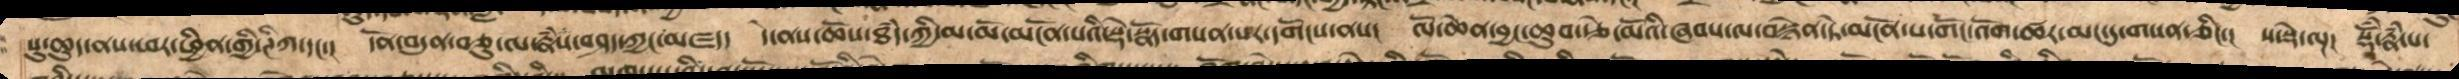སུ་ཆུད་ནས་ཕར་ཕྱིན་གྱི་ཊིཀ་དང་། དོན་བདུན་བཅུ་ལ་རྣཾས་བཤད་ཀྱང་མཛད། དེ་ནས་ཆོས་ཐཾད་ཀྱི་མ་མོ་མངོན་པའི་སྡེ་སྣོད་གསན་པར་དགོངས་ནས། ལོ་ཆེན་བྱང་ཆུབ་རྩེ་མོའི་ཞབས་ལ་བསྙེན་ཏེ་མངོན་པ་གོང་འོག་ཚར་མང་དུ་གསན་ཅིང་། ས་སྡེ་ལྔ། སྡོཾ་རྣཾ་པ་
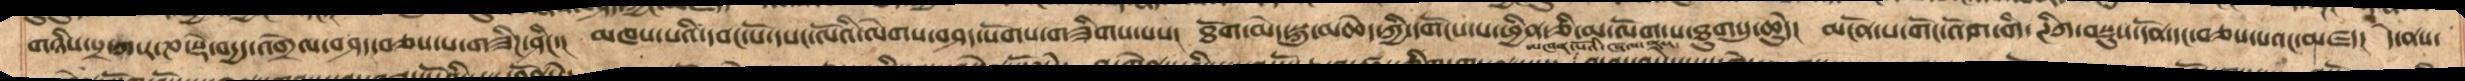གཉིས་པྲ་ཀ་ར་ཎ་སྡེ་བདྱད་འགྲེལ་བཤད་བཅས་པ་གཟིཌ་ཤིང་། མཁས་པའི་དབང་པོ་དཔང་ལོའི་ལེགས་བཤད་སོགས་གཟིགས་པས། ཐོག་མེད་སྐུ་མཆེད་ཀྱི་དགོངས་པཕྱིན་ཅི་མ་ལོག་པ་ཐུགསུ་ཆེུད། མངོན་པ་གོང་འོག་གི་ཊིཀ་བསྡུས་དོན་དང་བཅས་པའང་མཛད། དེ་ནས་
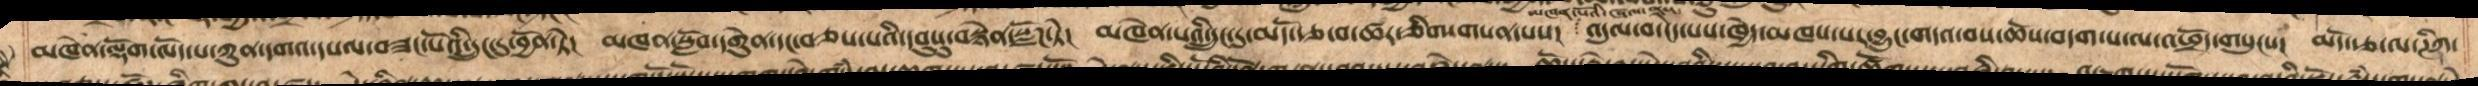མཁེན་ལྡོག་ལོད་པ་ཀུན་དགའ་དཔལ་བཟང་པོའི་དྲུང་དུ་བྱོན་ཏེ། མཁན་སློབ་དགེུན་དང་བཅས་པའི་དབུསུ་བསྙེན་སྫོཌ་ཏེ། མཁེན་པའི་དྲུང་དུ་མདོ་རྩ་བ་ཚར་ཅིག་གསན་པས། འདུལ་བ་ངེད་པས་ཁྱེད་མཁས་པར་བྱུང་གདའ་བས་ཆོས་བདག་པ་ལ་འཕྲོད་གསུངས། མདོ་རྩ་ལ་ཊིཀ་
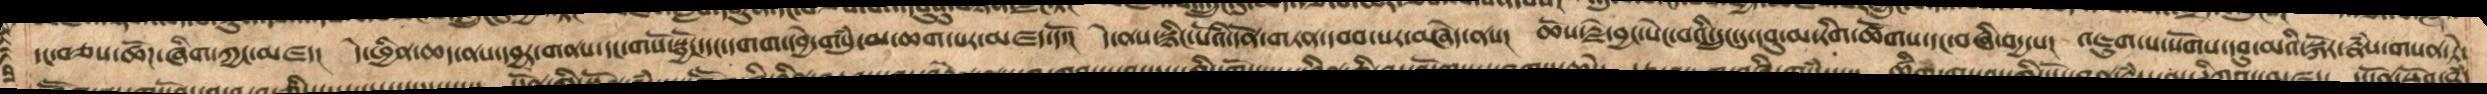དང་བཅས་ཚོཌ་ཞིག་ཀྱང་མཛད། དེ་ཕྱིན་ཆད་ནས་དབྱར་གནས་དང་གསོ་སྦྱོང་དགག་དབྱེ་གསུཾ་མ་ཆག་པར་མཛད་དོ་། དེ་ནས་སྙིང་པོའི་དོན་གཏན་དབབ་པར་བཞེད་ནས། ཆོས་རྗེ་བྱང་སེང་བའི་དྲུང་དུ་དབུ་མ་རིག་ཚོགས་དང་བཞི་བདྱ་བ། འཇུག་པ་སོགས་དབུ་མའི་སྐོར་རྣཾས་གསན་ཏེ།
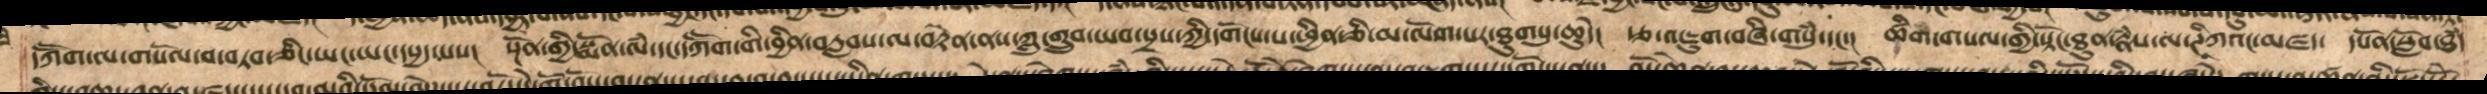དཀཽག་ལ་གསོལ་བ་བཏབ་ཅིང་ཡང་ཡང་དཔྱད་པས། སྔོན་གྱི་སྨོན་ལཾ་དང་དཀཽག་གི་བྱིན་བརླབས་ལ་བརྟེན་ནས་ཀླུ་གྲུབ་ཡབ་སྲས་ཀྱི་དགོངས་པ་ཕྱིན་ཅི་མ་ལོག་པར་ཐུགསུ་ཆེུད། རྩ་འཇུག་བཞི་གསུཾ་དང་། ཚིག་གསལ་གྱི་སྟོང་ཐུན་རྣཾས་ལ་ཊིཀའང་མཛད། དཔོན་སློབ་ཐཾད་
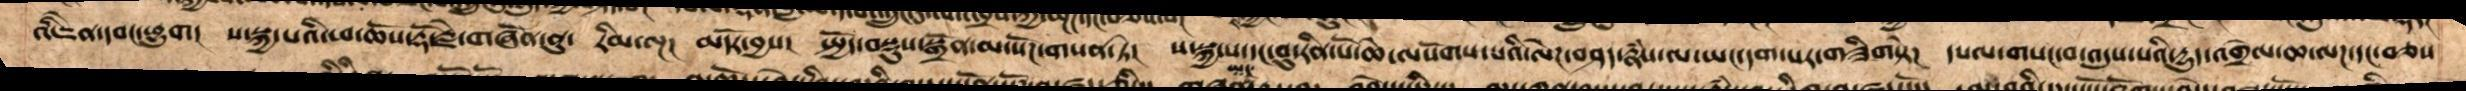འཇིེན་དབང་ཕྱུག།  ས་སྐྱ་པའི་ཕ་ཆོས་རྡོ་རྗེ་གཞོན་ནུ། རིམ་ལྔ། མདོར་བྱས། སྤྱོད་བསྡུས་སྒྲོན་མ་སོཌ་གསན་ཏེ། ས་སྐྱ་པ་དང་བུ་སྟོན་རིན་པོ་ཆེ་ལསོགས་པའི་ལེཌ་བཤད་རྣཾས་ལ་ཡང་དག་པར་གཟིགསྟེ། དཔལ་གསང་བ་འདུས་པའི་དྱུད་འགྲེལ་ཆ་ལཌ་དང་བཅས་
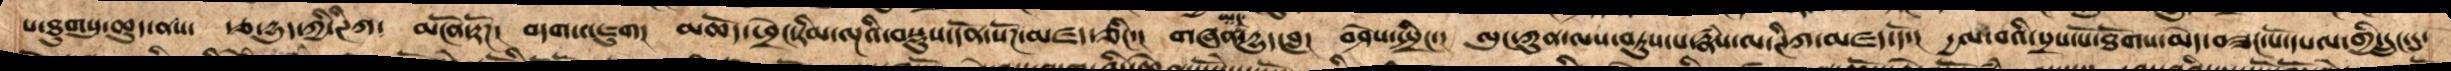པ་ཐུགསུ་ཆུད་ནས། རྩ་དྱུད་ཀྱི་ཊིཀ། མངོན་རྟོཌ། བདག་འཇུག།  མཆོད་ཕྲེང་རིམ་ལྔའི་བསྡུས་དོན་སོཌ་མཛད་ཅིང་། གཞན་ཡང་དྱུད་བླ། བཤེས་སྤྲིང་། ལུང་ཀུན་ལས་བཏུས་པ་རྣཾས་ལ་ཊིཀ་མཛད་དོ་།  དྱལ་བའི་སྲས་པོ་ཐོགས་མེད་བཟང་པོ་དཔལ་གྱི་དྲུང་དུ་
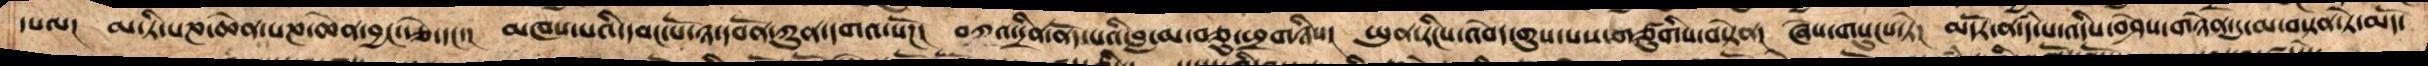དཔལ།  མ་ཏི་པཎ་ཆེན་པཎ་ཆེན་བྱང་རྩེ་དང་།  མཁས་པའི་དབང་པོ་ཉ་དབོན་ཀུན་དགའ་སོཌ།  བཀའ་དྲིན་ནོད་པའི་བླ་མ་བཅུ་ཕྲགཉིས།  ཡུན་རིང་འབདེ་གུས་པས་གཙུགིས་བསྟེན།  ཞེས་གསུངས་ཏེ།  མདོར་ན་དཾ་པ་འདིས་བཤེན་གཉེན་དུ་མ་བསྟན་ཏེ་མདོ་
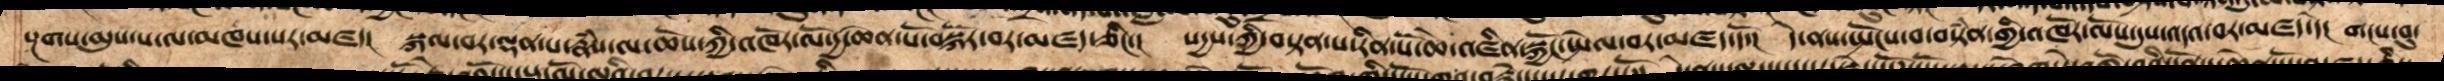སྔགས་མུས་པ་ལ་མཁས་པར་མཛད། སྐལ་བར་ལྡན་པ་རྣཾས་ལ་ཆོས་ཀྱི་འཁོར་ལོ་དྱ་ཆེན་པོ་བསྐོར་མཛད་ཅིང་། སདྱས་ཀྱི་བསྟན་པ་རིན་པོ་ཆེ་འཛིན་སྐྱོང་སྤེལ་བར་མཛད་དོ་། དེ་ནས་སྤོངས་བ་བསྟཾན་གྱི་འཁོར་ལོས་དུས་འདའ་བར་མཛད་དེ། གངས་བུ་
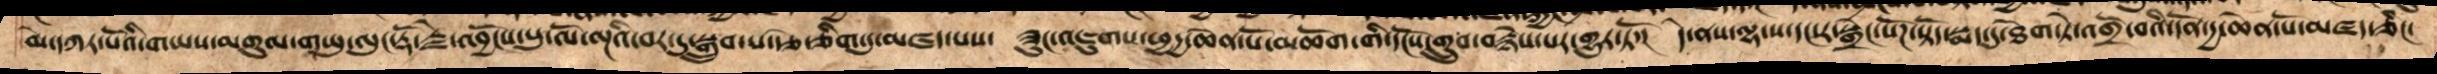མེ་དཀར་པོའི་གཡས་མགུལ་གཡུ་ལུང་རྡོ་རྗེ་འབྱོངས་སུ་ལོ་ལྔའི་བར་དུ་སྒྲུབ་པ་རྩེ་ཅིག་དུ་མཛད་པས།  ཟུང་འཇུགས་ཕྱདྱ་ཆེན་པོ་མཆོག་གི་དངོས་གྲུབ་བརྙེས་པར་གྱུར་ཏོ།  དེ་ནས་ལྷ་ས་དང་ར་སྒྲེང་སོཌ་སྟོད་སྨད་དུ་ཐེག་ཏེ་འགྲོ་བའི་དོན་དྱ་ཆེན་པོ་མཛད་ཅིང་།
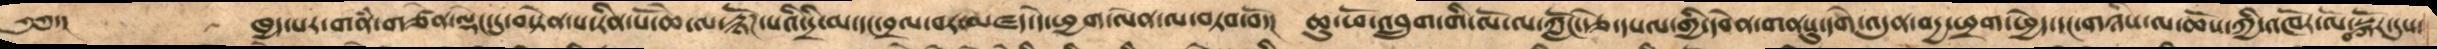༄༅་།      ཁྱད་པར་གནཾ་གཙན་ལྡང་དུ་བསྟེན་པ་རིན་པོ་ཆེ་ལ་རྙོཌ་པའི་དྲི་མ་དང་བྲལ་བར་མཛད་དེ་ཕྱག་ལན་ལ་བཏབ་བོ་།  ཆུ་ཕོ་འབྲུག་གི་ལོ་ལ་ཀློང་རྩེ་དཔལ་གྱི་དབེན་གནསུ་དགེ་འདུན་བདྱ་ཕྲག་ཕྱེད་དང་གཉིས་ལ་ཆོས་ཀྱི་འཁོར་ལོ་བསྐོར་དུས་
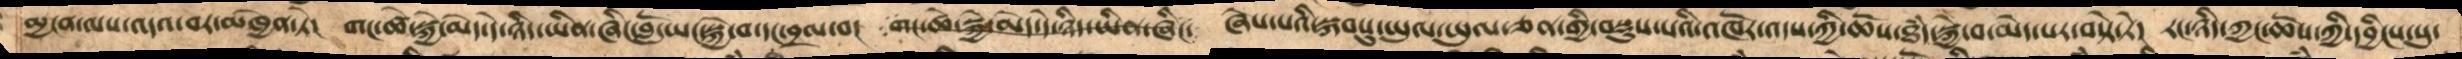མྱ་ངན་ལས་འདའ་བར་མཁྱེན་ཏེ།  གང་ཚེ་སྐྱེ་མེད་དེ་ཉིད་ཡིན་ཞིང་བློ་ཡང་སྐྱེ་བ་དང་བྲལ་བ།  གང་ཚེ་སྐྱེ་མེད་དེ་ཉིད་ཡིན་ཞིང་།  ཞེས་པའི་སྐབསུ་ཡུལ་ཡུལ་ཅན་གྱི་བསྡུས་པའི་འཁོར་འདས་ཀྱི་ཆོས་ཐཾད་སྐྱེ་བ་མེད་པར་བསྟེ་ཏེ། རང་ཉིད་ཀྱང་ཆོས་ཀྱི་དབྱིངས་སུ་
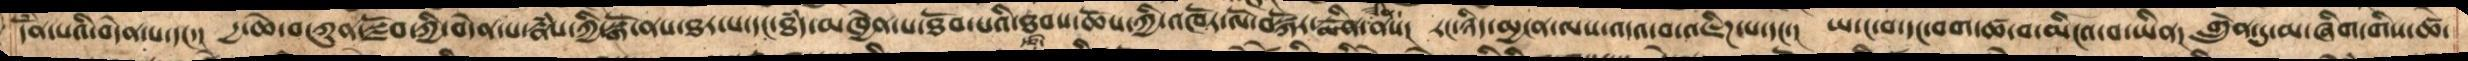དོན་པའི་བདེན་པ་དང་། དྱ་ཆེ་བ་ཀུན་སྫོབ་ཀྱི་བདེན་པ་རྣཾས་ཀྱི་སྒོ་ནས་ཐར་པ་དང་ཐཾད་མཁྱེན་པ་ཐོབ་པའི་ཐབས་ཆོས་ཀྱི་འཁོར་ལོ་བསྐོར་རྨིན་ཟིན་ནས། རང་ཉིད་མྱངན་ལས་འདའ་བ་ལ་འཇིཌ་པ་དང་། ཡ་ང་བ་དང་བག་ཚ་བ་མིངའ་བ་ཡིན། གྲེུན་དུ་མ་ཞིག་གིས་ཚེ་
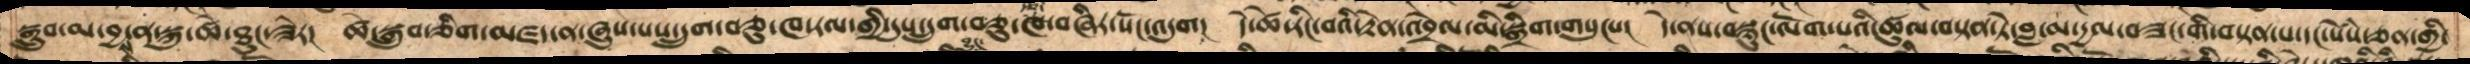སྒྲུབ་མ་བྱས་ན་སྐུ་ཚེ་ཐུང་ཟེར། ཚེ་སྒྲུབ་ཅིག་མཛད་ན་ཞུས་པས་དྲུག་བཅུ་ཁ་རལ་གྱི་དུས་དྲུག་ཅུ་རྩ་ཁ་བཞིར་སོང་འདུག  དེ་ཚེ་རིང་བའི་རྟེན་འབྲེལ་མི་སྒྲིག་གསུངས། དེ་ནས་བསྙུང་ལོག་པའི་ཚུལ་བསྟན་ཏེ་བླ་མ་དྱལ་བཟང་གིས་བསྟན་པ་དང་སེཾས་ཅན་གྱི་
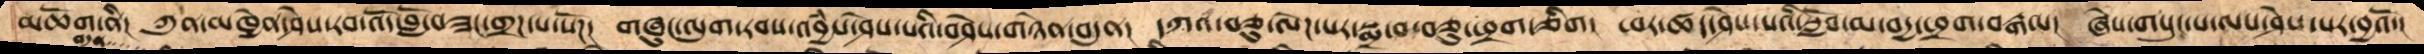མཆོག་ནི། ཀུན་མཁྱེན་ཤེས་རབ་འོད་བློ་བཟང་གྲཌ་པ་སོཌ།  གཞུང་ལུག་རབས་འབྱཾས་ཤེས་པའི་བཤེས་གཉེན་བདུན། དཀའ་བཅུ་ལེཌ་པར་སྨྲ་བ་བཅུ་ཕྲག་ཅིག།  ཕར་ཚད་ཤེས་པའི་སློབ་མ་བདྱ་ཕྲག་བརྒལ།  ཞེས་གསུང་པ་ལས་ཤེས་པར་བྱའོ་།
